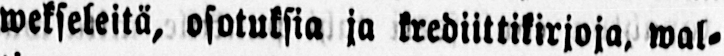wekseleitä, osotuksia ja krediittikirjoja, wal-
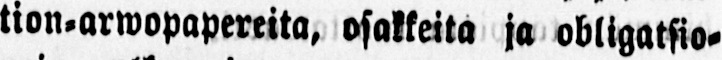tion-arwopapereita, osakkeita ja obligatsio-
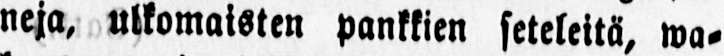neja, ulkomaisten pankkien seteleitä, wa-
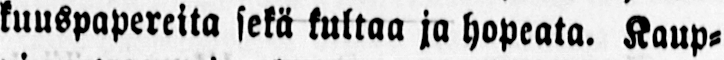kuuspapereita sekä kultaa ja hopeata. Kaup-
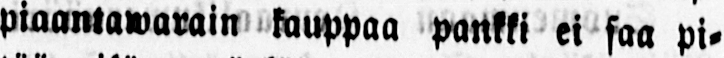piaantawarain kauppaa pankki ei saa pi-
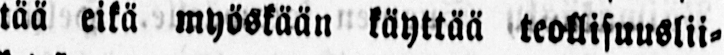tää eikä myöskään käyttää teollisuuslii-
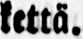kettä.
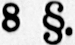8 §.
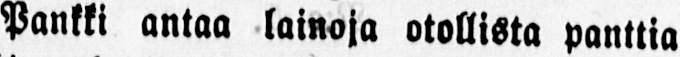Pankki antaa lainoja otollista panttia
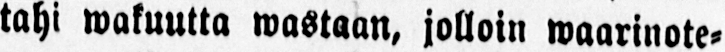tahi wakuutta wastaan, jolloin waarinote-
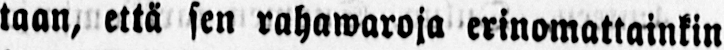taan, että sen rahawaroja erinomattainkin
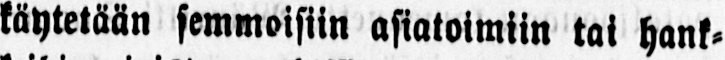täytetään semmoisiin asiatoimiin tai hank-
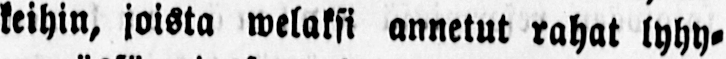keihin, joista welaksi annetut rahat lyhy-
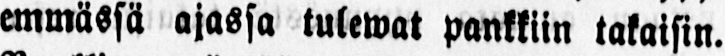emmässä ajassa tulewat pankkiin takaisin.
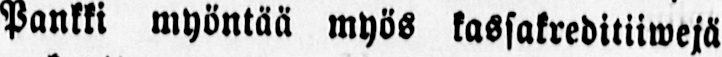Pankki myöntää myös kassakreditiiwejä
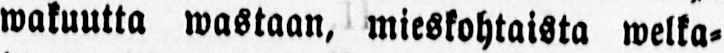wakuutta wustaan, mieskohtaista welka-
